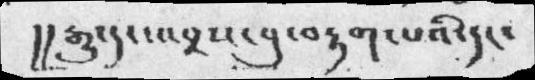།།རྒྱུ་དང་འབྲས་བུ་བརྟག་པའི་དང་
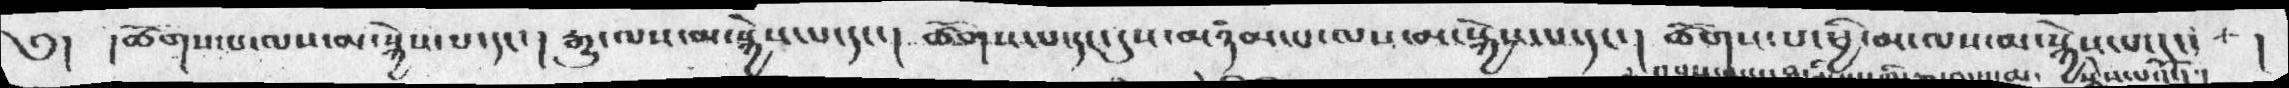༄།   །ཞོགས་པ་ལས་མ་སྐྱེས་པ་དང་།   རྒྱུ་ལས་མ་སྐྱེས་པ་དང་།  ཚོགས་པ་དང་དུས་མཉམ་པ་ལས་མ་སྐྱེས་པ་དང་།  ཚོགས་པ་ཕྱི་མ་ལས་མ་སྐྱེས་པ་དང་   །
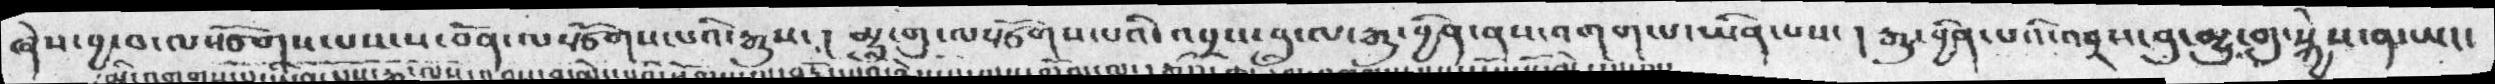ཞེས་བྱ་བ་ལསྩོགས་པས་ས་བོན་ལསྩོགས་པའི་རྒྱུས་།  མྱུ་གུ་ལསྩོགས་པའི་འབྲས་བུ་ལ་རྒུ་བྱིན་ནས་འགག་པ་ཡིན་པས་།  རྒྱུ་བྱིན་པའི་འབྲས་བུ་མྱུ་གུ་སྐྱེས་ནས་ཡང་
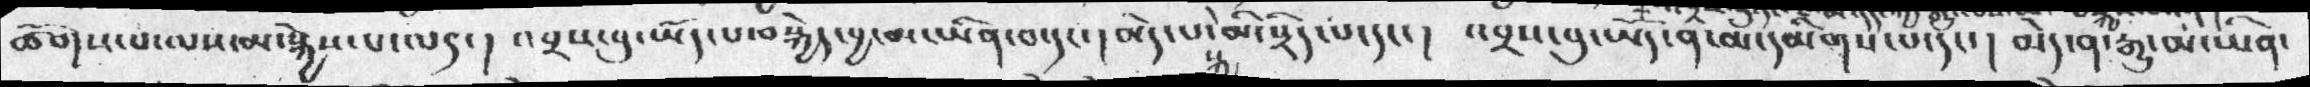ཚོགས་པ་ལས་མ་སྐྱེས་པ་ལ༤།  འབྲས་བུ་ཡོད་པ་བསྐྱེད་བྱ་མ་ཡིན་བ་དང་།  མེད་པའི་མི་སྲིད་པ་དང་།  འབྲས་བུ་ཡོད་ན་མ་དམིགས་པ་དང་།  མེད་ན་རྒྱུ་མ་ཡིན་
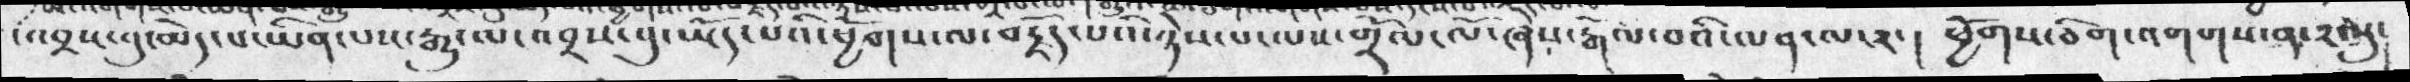འབྲས་བུ་མེད་པ་ཡིན་པས་རྒྱུ་ལ་འབྲས་བུ་ཡོད་པའི་ཕྱོགས་ལ་བརྗོད་པའི་ཉེས་པ་ལས་གྲོལ་ལོ་ཞེས་རྒོལ་བའི་ལན་ལ་༢་།  ཕྱོགས་ཅིག་འགགས་༢སུ་
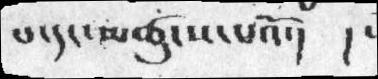པ་དང་མཚུངས་པའོ་།  །
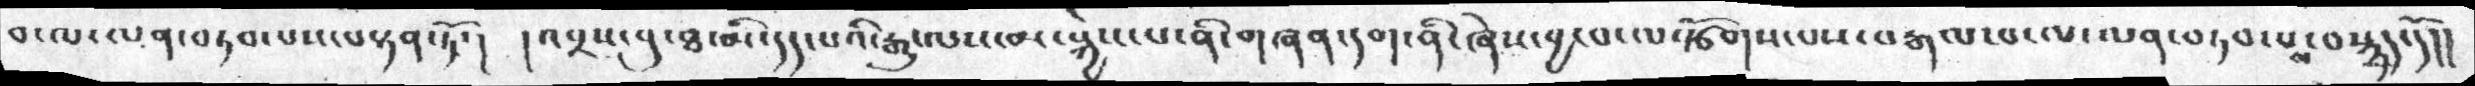བ་ལ་ལན་བཏབ་པས་བསྟན་ཏོ་།  ། འབྲས་བུ་ཐ་མི་དད་པའི་རྒྱུ་ལས་མ་སྐྱེས་པ་ནི་གཞན་དག་ནི་ཞེས་བྱ་བ་ལསྩོགས་པས་བརྒལ་པ་ལ་ལན་བཏབ་པས་བསྙད་དོ།།
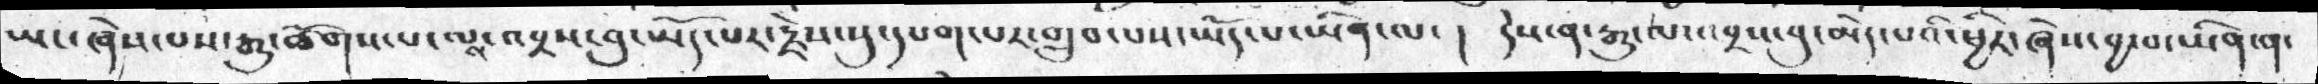ཡང་ཞེས་པས་རྒུ་ཚོགས་པ་ལས་འབྲས་བུ་ཡོད་པར་རྗེས་སུ་དཔག་པར་གྲུབ་པས་ཡོད་པ་ཡིན་ལ་།  དེས་ན་རྒུ་ལ་འབྲས་བུ་མེད་པའི་ཕྱིར་ཞེས་བྱ་བ་ཡིན་ན་
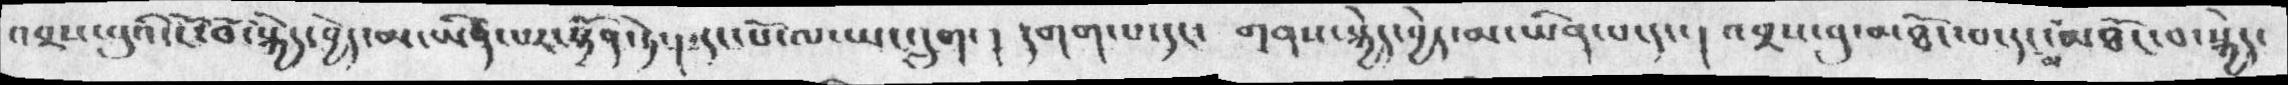འབྲས་བུའི་ངོ་བོ་སྐེད་བྱེད་མ་ཡིན་པར་སྟོན་ཏེ་།   དང་པོ་ལ་ཡང་དྲུག་།  དགག་པ་དང་  གནས་སྐྱེད་བྱེད་མ་ཡིན་པ་དང་།  འབྲས་བུ་མཐོང་བ་དང་མ་མཐོང་བ་སྐྱེད་
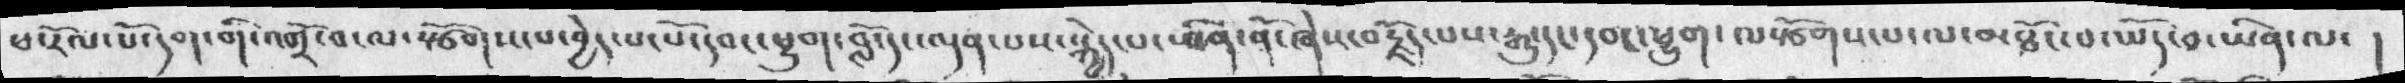ཕ་རོལ་པོ་དག་གི་འགྲོ་བ་ལ་སྩོགས་པ་བྱེད་པ་པོ་དབང་ཕྱུག་བློ་དང་ལྡན་པས་སྐྱེད་པ་ཡིན་ནོ་ཞེས་བརྗོད་པས་རྒྱུ་དང་དབང་ཕྱུག་ལསྩོགས་པ་ལ་མཐོང་བ་ཡོད་བ་ཡིན་ལ་  །
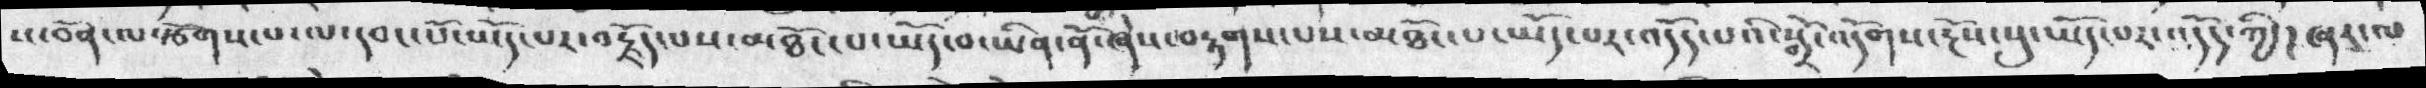ས་བོན་ལསྩོགས་པ་ལ་དབང་པོ་ཡོད་པར་བརྗོད་པས་མཐོང་པ་ཡོད་བ་ཡིན་ནོ་ཞེས་བརྟགས་པས་མཐོང་པ་ཡོད་པར་འདོད་པའི་སྒྲོ་འདོགས་རྔོས་སུ་ཡོད་པར་འདོད་ཀྱི་། ཞར་ལ
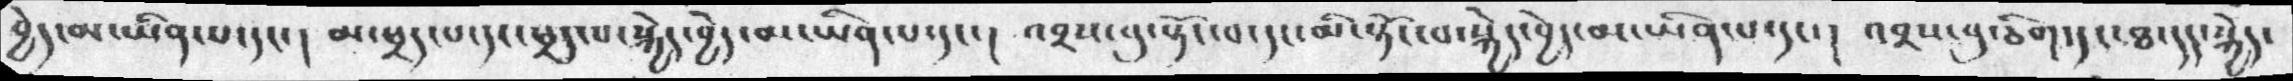བྱེད་མ་ཡིན་པ་དང་།  མ་ཕྲད་པ་དང་ཕྲད་པ་སྐྱེད་བྱེད་མ་ཡིན་པ་དང་།  འབྲས་བུ་སྟོང་བ་དང་མི་སྟོང་པ་སྐྱེད་བྱེད་མ་ཡིན་པ་དང་། འབྲས་བུ་ཅིག་དང་ཐ་དད་སྐྱེད་
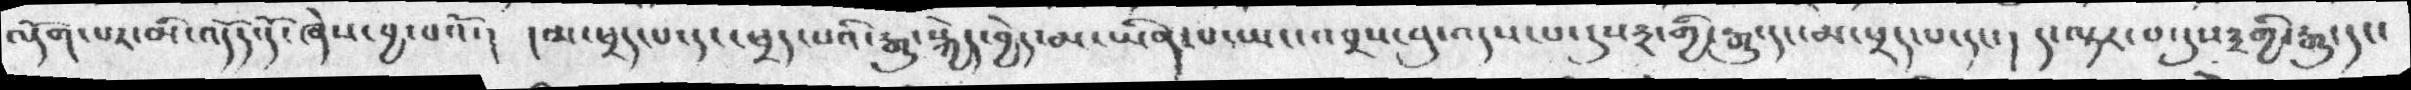ལྡོག་པར་མི་འདོད་དོ་ཞེས་བྱ་བའོ་།  །མ་ཕྲད་པ་དང་ཕྲད་པའི་རྒྱུ་སྐྱེད་བྱེད་མ་ཡིན་པ་ཡང་འབྲས་བུ་འདས་པ་དུས༣་གྱི་རྒྱུ་དང་མ་ཕྲད་པ་དང་། ད་ལྟར་བ་དུས༣གྱི་རྒྱུ་དང་
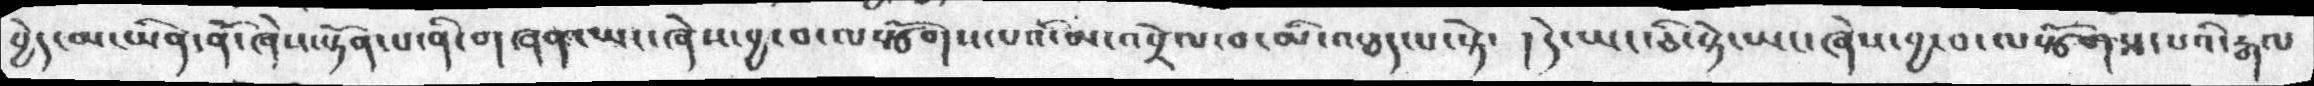བྱེད་མ་ཡིན་ནོ་ཞེས་སྟོན་པ་ནི་གཞན་ཡང་ཞེས་བྱ་བ་ལསྩོགས་པའོ་མ་འབྲེལ་བ་མི་འཐད་སྟེ་ །དེ་ཡང་ཅི་སྟེ་ཡང་ཞེས་བྱ་བ་ལསྩོགས་པའི་རྒལ
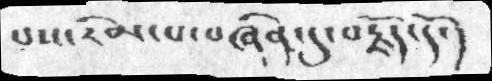པས་རིམ་པ་བཞིན་དུ་བརྗོད་དོ་།
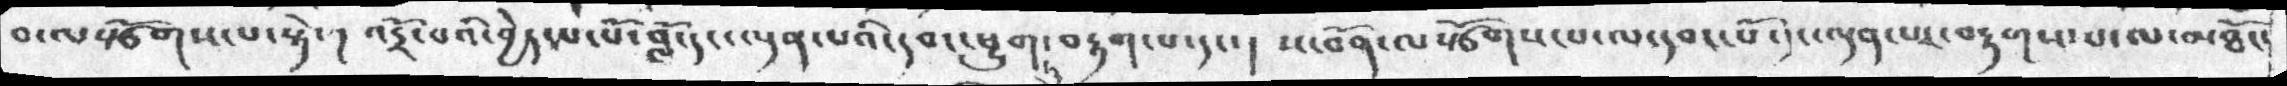བ་ལསྩོགས་པ་སྟེ་།  འདྲོ་བའི་བྱེད་པ་པོ་བློ་དང་ལྡན་པའི་དབང་ཕྱུག་ཏུ་བརྟག་པ་དང་།  ས་བོན་ལསྩོགས་པ་ལ་དབང་པོ་དང་ལྡན་པར་བརྟགས་པ་ལ་མཐོང་
